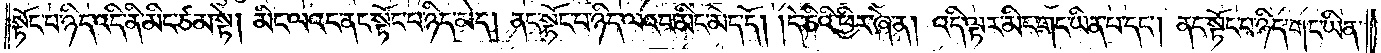སྟོང་པ་ཉིད་འདི་ནི་མིང་ཙམ་སྟེ། མིང་ལའང་ནང་སྟོང་པ་ཉིད་མེད། ནང་སྟོང་པ་ཉིད་ལའང་མིང་མེད་དོ། །དེ་ཅིའི་ཕྱིར་ཞེ་ན། འདི་ལྟར་མིང་གང་ཡིན་པ་དང༌། ནང་སྟོང་པ་ཉིད་གང་ཡིན་
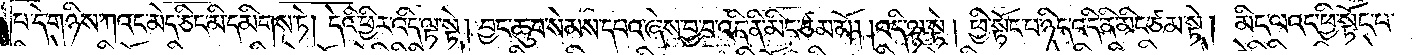པ་དེ་གཉིས་ཀའང་མེད་ཅིང་མི་དམིགས་ཏེ། དེའི་ཕྱིར་འདི་ལྟ་སྟེ། བྱང་ཆུབ་སེམས་དཔའ་ཞེས་བྱ་བ་འདི་ནི་མིང་ཙམ་མོ། །འདི་ལྟ་སྟེ། ཕྱི་སྟོང་པ་ཉིད་འདི་ནི་མིང་ཙམ་སྟེ། མིང་ལའང་ཕྱི་སྟོང་
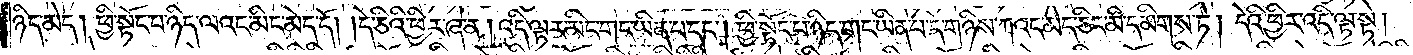པ་ཉིད་མེད། ཕྱི་སྟོང་པ་ཉིད་ལའང་མིང་མེད་དོ། །དེ་ཅིའི་ཕྱིར་ཞེ་ན། འདི་ལྟར་མིང་གང་ཡིན་པ་དང༌། ཕྱི་སྟོང་པ་ཉིད་གང་ཡིན་པ་དེ་གཉིས་ཀའང་མེད་ཅིང་མི་དམིགས་ཏེ། །དེའི་ཕྱིར་འདི་ལྟ་སྟེ།
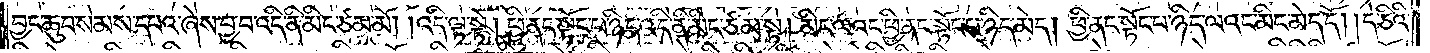བྱང་ཆུབ་སེམས་དཔའ་ཞེས་བྱ་བ་འདི་ནི་མིང་ཙམ་མོ། །འདི་ལྟ་སྟེ། ཕྱི་ནང་སྟོང་པ་ཉིད་འདི་ནི་མིང་ཙམ་སྟེ། མིང་ལའང་ཕྱི་ནང་སྟོང་པ་ཉིད་མེད། ཕྱི་ནང་སྟོང་པ་ཉིད་ལའང་མིང་མེད་དོ། །དེ་ཅིའི་
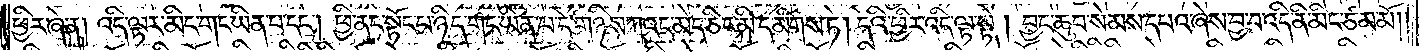ཕྱིར་ཞེ་ན། འདི་ལྟར་མིང་གང་ཡིན་པ་དང༌། ཕྱི་ནང་སྟོང་པ་ཉིད་གང་ཡིན་པ་དེ་གཉིས་ཀའང་མེད་ཅིང་མི་དམིགས་ཏེ། དེའི་ཕྱིར་འདི་ལྟ་སྟེ། བྱང་ཆུབ་སེམས་དཔའ་ཞེས་བྱ་བ་འདི་ནི་མིང་ཙམ་མོ། །
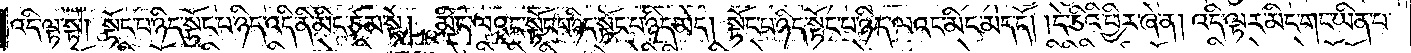འདི་ལྟ་སྟེ། སྟོང་པ་ཉིད་སྟོང་པ་ཉིད་འདི་ནི་མིང་ཙམ་སྟེ། མིང་ལའང་སྟོང་པ་ཉིད་སྟོང་པ་ཉིད་མེད། སྟོང་པ་ཉིད་སྟོང་པ་ཉིད་ལའང་མིང་མེད་དོ། །དེ་ཅིའི་ཕྱིར་ཞེ་ན། འདི་ལྟར་མིང་གང་ཡིན་པ་
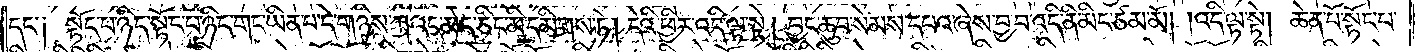དང༌། སྟོང་པ་ཉིད་སྟོང་པ་ཉིད་གང་ཡིན་པ་དེ་གཉིས་ཀའང་མེད་ཅིང་མི་དམིགས་ཏེ། དེའི་ཕྱིར་འདི་ལྟ་སྟེ། བྱང་ཆུབ་སེམས་དཔའ་ཞེས་བྱ་བ་འདི་ནི་མིང་ཙམ་མོ། །འདི་ལྟ་སྟེ། ཆེན་པོ་སྟོང་པ་
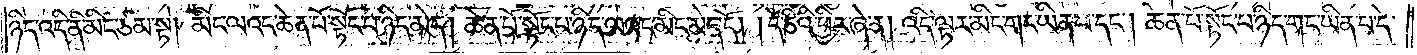ཉིད་འདི་ནི་མིང་ཙམ་སྟེ། མིང་ལའང་ཆེན་པོ་སྟོང་པ་ཉིད་མེད། ཆེན་པོ་སྟོང་པ་ཉིད་ལའང་མིང་མེད་དོ། །དེ་ཅིའི་ཕྱིར་ཞེ་ན། འདི་ལྟར་མིང་གང་ཡིན་པ་དང༌། ཆེན་པོ་སྟོང་པ་ཉིད་གང་ཡིན་པ་དེ་
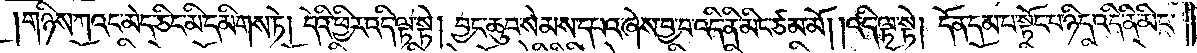གཉིས་ཀའང་མེད་ཅིང་མི་དམིགས་ཏེ། དེའི་ཕྱིར་འདི་ལྟ་སྟེ། བྱང་ཆུབ་སེམས་དཔའ་ཞེས་བྱ་བ་འདི་ནི་མིང་ཙམ་མོ། །འདི་ལྟ་སྟེ། དོན་དམ་པ་སྟོང་པ་ཉིད་འདི་ནི་མིང་
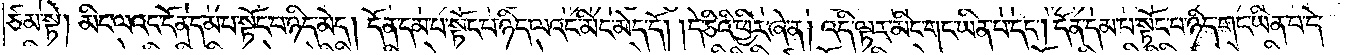ཙམ་སྟེ། མིང་ལའང་དོན་དམ་པ་སྟོང་པ་ཉིད་མེད། དོན་དམ་པ་སྟོང་པ་ཉིད་ལའང་མིང་མེད་དོ། །དེ་ཅིའི་ཕྱིར་ཞེ་ན། འདི་ལྟར་མིང་གང་ཡིན་པ་དང༌། དོན་དམ་པ་སྟོང་པ་ཉིད་གང་ཡིན་པ་དེ་
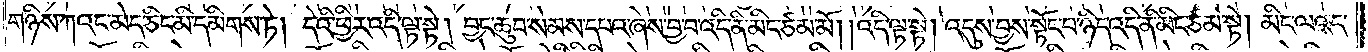གཉིས་ཀའང་མེད་ཅིང་མི་དམིགས་ཏེ། དེའི་ཕྱིར་འདི་ལྟ་སྟེ། བྱང་ཆུབ་སེམས་དཔའ་ཞེས་བྱ་བ་འདི་ནི་མིང་ཙམ་མོ། །འདི་ལྟ་སྟེ། འདུས་བྱས་སྟོང་པ་ཉིད་འདི་ནི་མིང་ཙམ་སྟེ། མིང་ལའང་
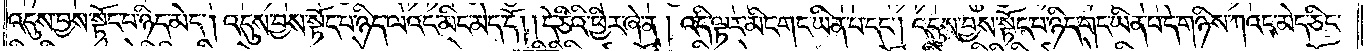འདུས་བྱས་སྟོང་པ་ཉིད་མེད། འདུས་བྱས་སྟོང་པ་ཉིད་ལའང་མིང་མེད་དོ། །དེ་ཅིའི་ཕྱིར་ཞེ་ན། འདི་ལྟར་མིང་གང་ཡིན་པ་དང༌། འདུས་བྱས་སྟོང་པ་ཉིད་གང་ཡིན་པ་དེ་གཉིས་ཀའང་མེད་ཅིང་
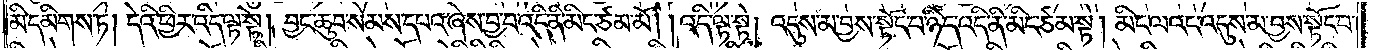མི་དམིགས་ཏེ། དེའི་ཕྱིར་འདི་ལྟ་སྟེ། བྱང་ཆུབ་སེམས་དཔའ་ཞེས་བྱ་བ་འདི་ནི་མིང་ཙམ་མོ། །འདི་ལྟ་སྟེ། འདུས་མ་བྱས་སྟོང་པ་ཉིད་འདི་ནི་མིང་ཙམ་སྟེ། མིང་ལའང་འདུས་མ་བྱས་སྟོང་པ་
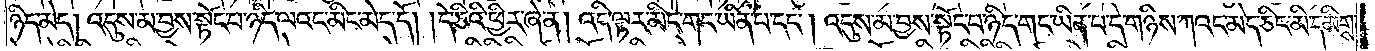ཉིད་མེད། འདུས་མ་བྱས་སྟོང་པ་ཉིད་ལའང་མིང་མེད་དོ། །དེ་ཅིའི་ཕྱིར་ཞེ་ན། འདི་ལྟར་མིང་གང་ཡིན་པ་དང༌། འདུས་མ་བྱས་སྟོང་པ་ཉིད་གང་ཡིན་པ་དེ་གཉིས་ཀའང་མེད་ཅིང་མི་དམིགས་
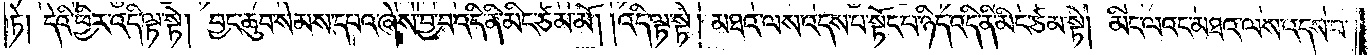ཏེ། དེའི་ཕྱིར་འདི་ལྟ་སྟེ། བྱང་ཆུབ་སེམས་དཔའ་ཞེས་བྱ་བ་འདི་ནི་མིང་ཙམ་མོ། །འདི་ལྟ་སྟེ། མཐའ་ལས་འདས་པ་སྟོང་པ་ཉིད་འདི་ནི་མིང་ཙམ་སྟེ། མིང་ལའང་མཐའ་ལས་འདས་པ་
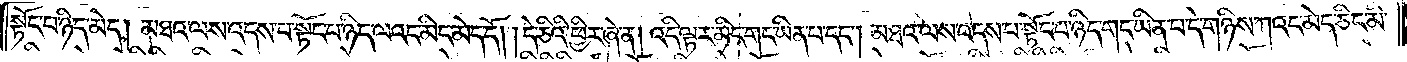སྟོང་པ་ཉིད་མེད། མཐའ་ལས་འདས་པ་སྟོང་པ་ཉིད་ལའང་མིང་མེད་དོ། །དེ་ཅིའི་ཕྱིར་ཞེ་ན། འདི་ལྟར་མིང་གང་ཡིན་པ་དང༌། མཐའ་ལས་འདས་པ་སྟོང་པ་ཉིད་གང་ཡིན་པ་དེ་གཉིས་ཀའང་མེད་ཅིང་མི་
